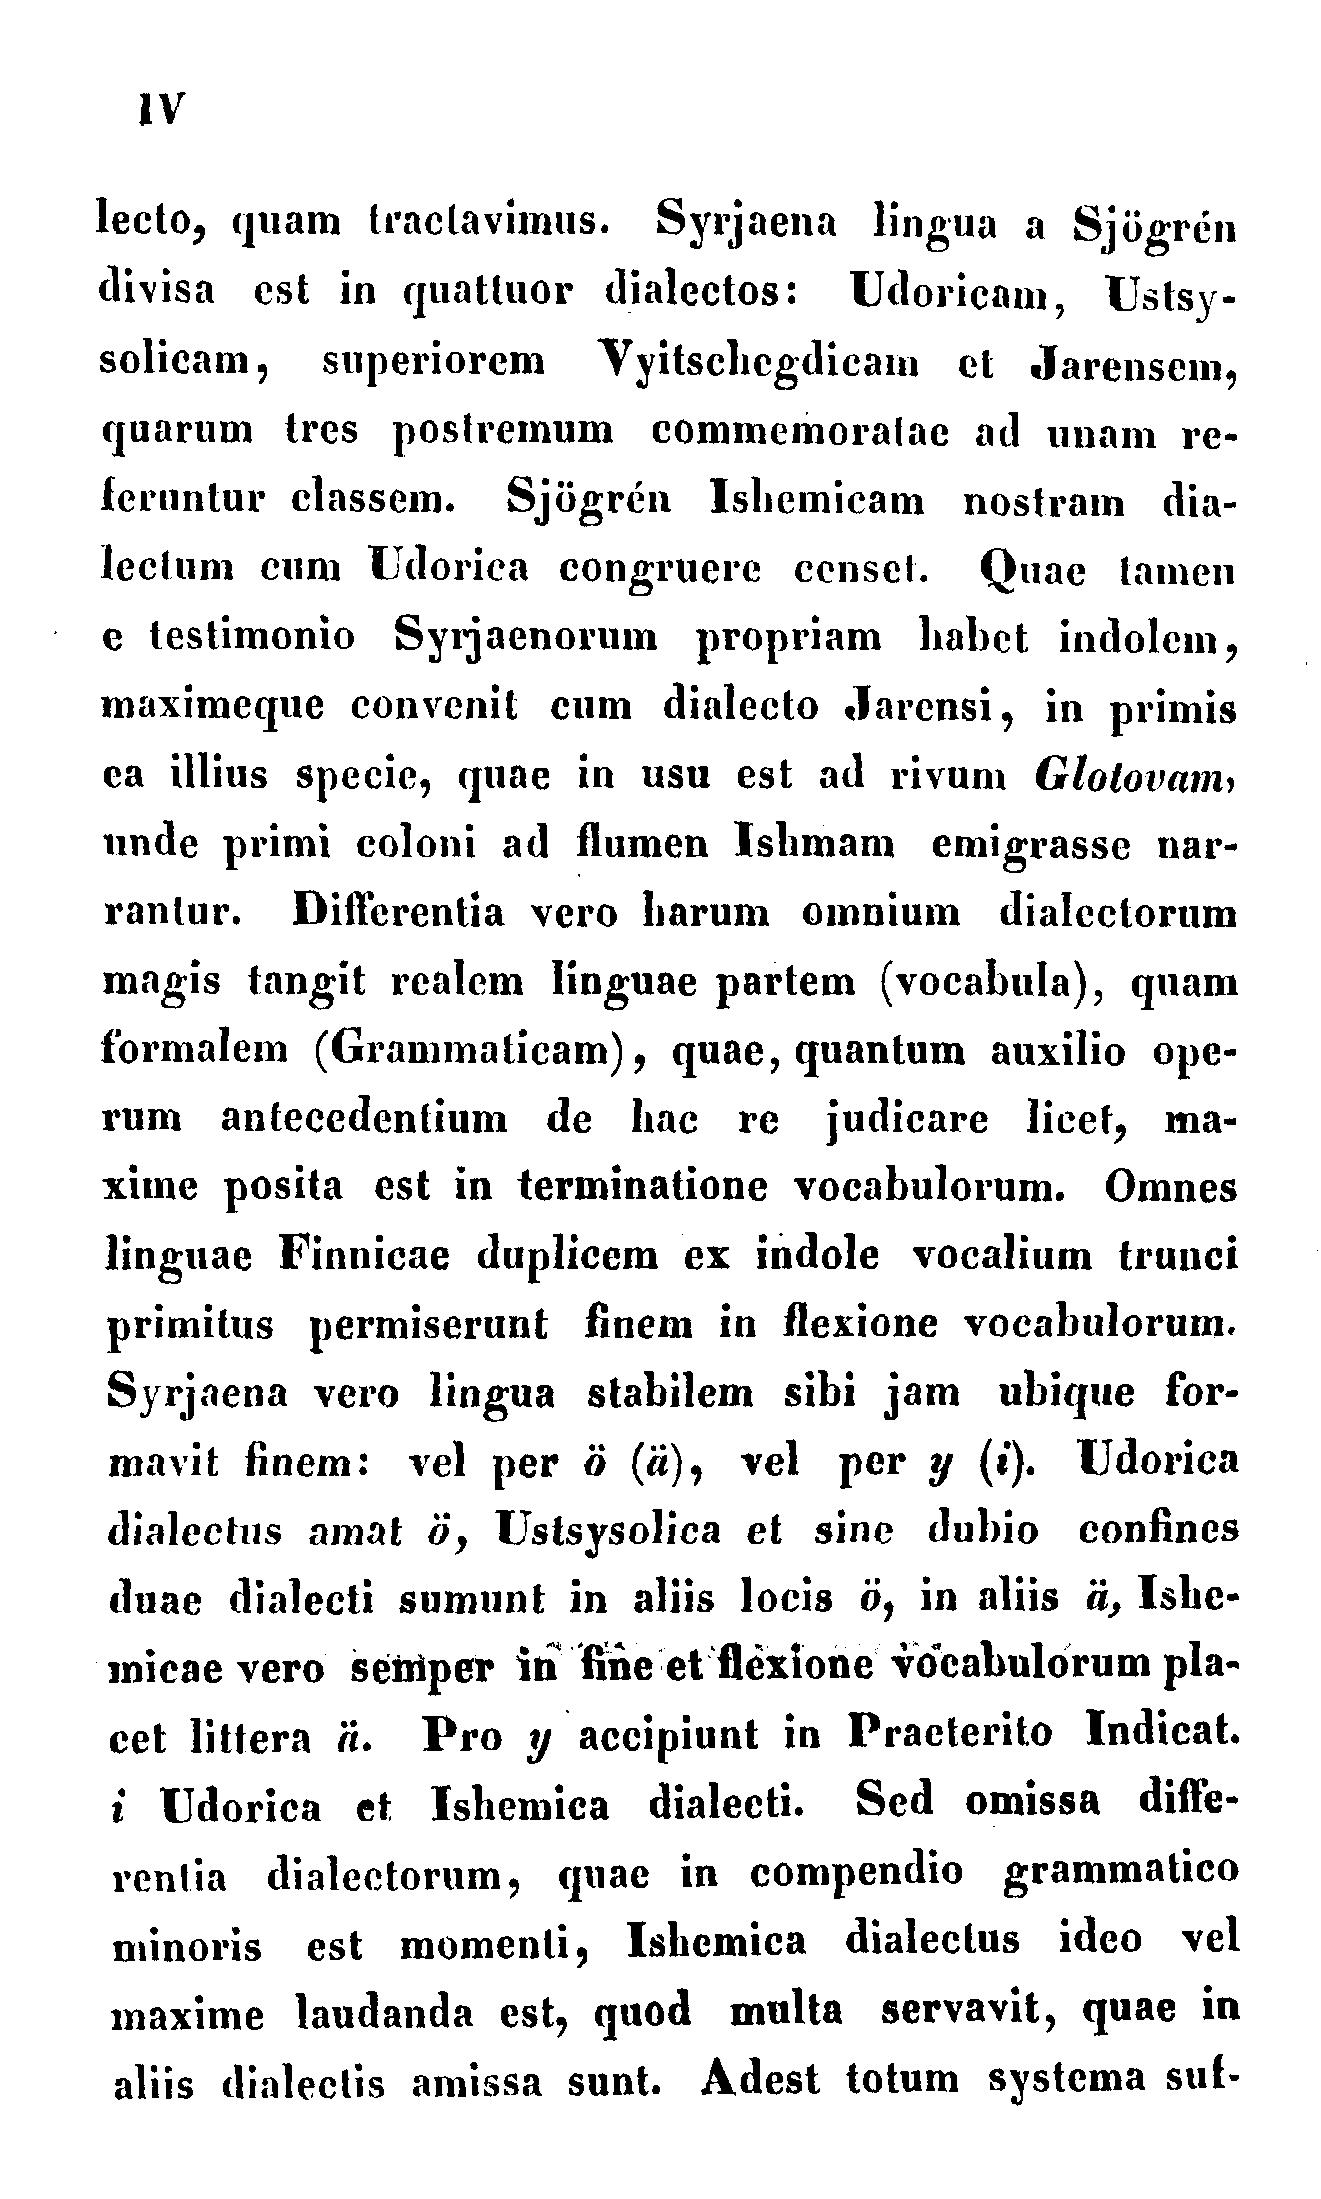IV
lecto, quam tractavimus Syrjaena lingua a Sjögrén
divisa est in quattuor dialectos: Udoricam, Ustsy-
solicam, superiorem Vyitschegdicam et Jarensem,
quarum tres postremum commemoratae ad unam re-
feruntur classem. Sjögrén Ishemicam nostram dia-
lectum cum Udorica congruere censet. Quae tamen
e testimonio Syrjaenorum propriam habet indolem,
maximeque convenit cum dialecto Jarensi, in primis
ea illius specie, quae in usu est ad rivum Glotovam,
unde primi coloni ad flumen Ishmam emigrasse nar-
rantur. Differentia vero harum omnium dialectorum
magis tangit realem linguae partem (vocabula), quam
formalem (Grammaticam), quae, quantum auxilio ope-
rum antecedentium de hac re judicare licet, ma-
xime posita est in terminatione vocabulorum. Omnes
linguae Finnicae duplicem ex indole vocalium trunci
primitus permiserunt finem in flexione vocabulorum.
Syrjaena vero lingua stabilem sibi iam ubique for-
mavit finem: vel per ö (ä), vel per y (i). Udorica
dialectus amat ö, Ustsysolica et sine dubio confines
duae dialecti sumunt in aliis locis ö, in aliis ä, Ishe-
micae vero semper in fine et flexione vocabulorum pla-
cet littera ä. Pro y accipiunt in Praeterito Indicat.
i Udorica et Ishemica dialecti. Sed omissa diffe-
rentia dialectorum, quae in compendio grammatico
minoris est momenti, Ishemica dialectus ideo vel
maxime laudanda est, quod multa servavit, quae in
aliis dialectis amissa sunt. Adest totum systema suf-
